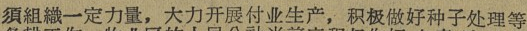須組織一定力量，大力开展付业生产，积极做好种子的处理等
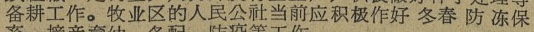备耕工作。牧业区的人民公社当前应积极做好 冬春 防 冻保
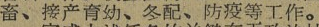畜、接产育幼、冬配、防疫等工作。
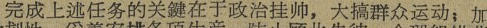完成上述任务的关鍵在于政治挂帅，大搞群众运动；加
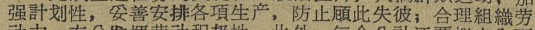强計划性，妥善安排各項生产，防止顾此失彼；合理組織劳
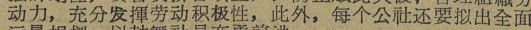动力，充分发揮劳动积极性，此外，每个公社还要拟出全面
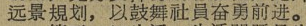远景規划，以鼓舞社員奋勇前进 。
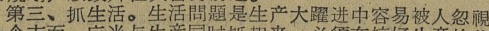第三、抓生活。生活問題是生产大躍进中容易被人忽視
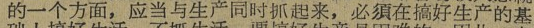的一个方面，应当与生产同时抓起来，必須在搞好生产的基
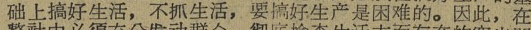础上搞好生活，不抓生活，要搞好生产是困难的。因此，在
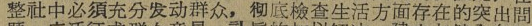整社中必須充分发动群众，彻底檢查生活方面存在的突出問
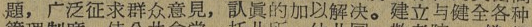題，广泛征求群众意見，认眞的加以解决。建立与健全各种
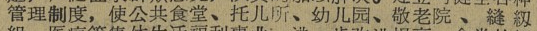管理制度，使公共食堂、托儿所、幼儿园、敬老院、縫 紉
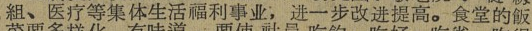組、医疗等集体生活福利事业，进一步改进提高。食堂的飯
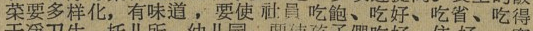菜要多样化，有味道，要使社員吃飽、吃好、吃省、吃得
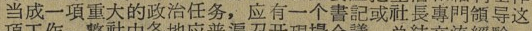当成一項重大政治任务，有一个書記和社長專門領导这
